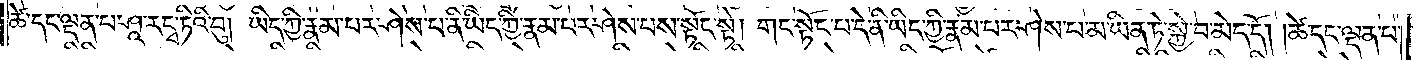ཚེ་དང་ལྡན་པ་ཤཱ་ར་དྭ་ཏིའི་བུ། ཡིད་ཀྱི་རྣམ་པར་ཤེས་པ་ནི་ཡིད་ཀྱི་རྣམ་པར་ཤེས་པས་སྟོང་སྟེ། གང་སྟོང་པ་དེ་ནི་ཡིད་ཀྱི་རྣམ་པར་ཤེས་པ་མ་ཡིན་ཏེ་སྐྱེ་བ་མེད་དོ། །ཚེ་དང་ལྡན་པ་
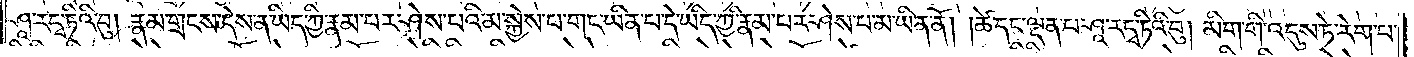ཤཱ་ར་དྭ་ཏིའི་བུ། རྣམ་གྲངས་དེས་ན་ཡིད་ཀྱི་རྣམ་པར་ཤེས་པའི་མ་སྐྱེས་པ་གང་ཡིན་པ་དེ་ཡིད་ཀྱི་རྣམ་པར་ཤེས་པ་མ་ཡིན་ནོ། །ཚེ་དང་ལྡན་པ་ཤཱ་ར་དྭ་ཏིའི་བུ། མིག་གི་འདུས་ཏེ་རེག་པ་
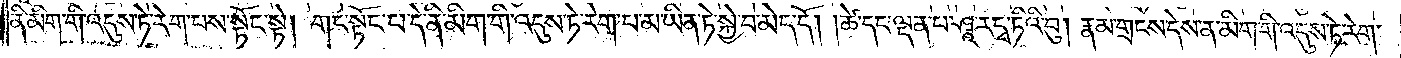ནི་མིག་གི་འདུས་ཏེ་རེག་པས་སྟོང་སྟེ། གང་སྟོང་པ་དེ་ནི་མིག་གི་འདུས་ཏེ་རེག་པ་མ་ཡིན་ཏེ་སྐྱེ་བ་མེད་དོ། །ཚེ་དང་ལྡན་པ་ཤཱ་ར་དྭ་ཏིའི་བུ། རྣམ་གྲངས་དེས་ན་མིག་གི་འདུས་ཏེ་རེག་
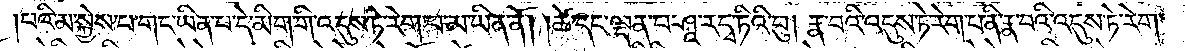པའི་མ་སྐྱེས་པ་གང་ཡིན་པ་དེ་མིག་གི་འདུས་ཏེ་རེག་པ་མ་ཡིན་ནོ། །ཚེ་དང་ལྡན་པ་ཤཱ་ར་དྭ་ཏིའི་བུ། རྣ་བའི་འདུས་ཏེ་རེག་པ་ནི་རྣ་བའི་འདུས་ཏེ་རེག་
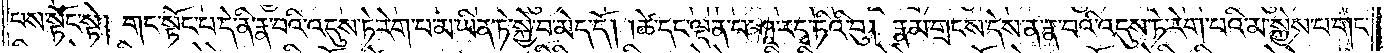པས་སྟོང་སྟེ། གང་སྟོང་པ་དེ་ནི་རྣ་བའི་འདུས་ཏེ་རེག་པ་མ་ཡིན་ཏེ་སྐྱེ་བ་མེད་དོ། །ཚེ་དང་ལྡན་པ་ཤཱ་ར་དྭ་ཏིའི་བུ། རྣམ་གྲངས་དེས་ན་རྣ་བའི་འདུས་ཏེ་རེག་པའི་མ་སྐྱེས་པ་གང་
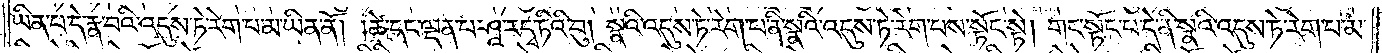ཡིན་པ་དེ་རྣ་བའི་འདུས་ཏེ་རེག་པ་མ་ཡིན་ནོ། །ཚེ་དང་ལྡན་པ་ཤཱ་ར་དྭ་ཏིའི་བུ། སྣའི་འདུས་ཏེ་རེག་པ་ནི་སྣའི་འདུས་ཏེ་རེག་པས་སྟོང་སྟེ། གང་སྟོང་པ་དེ་ནི་སྣའི་འདུས་ཏེ་རེག་པ་མ་
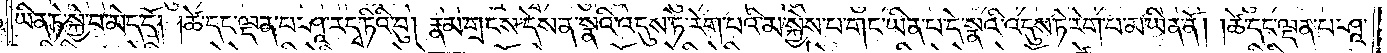ཡིན་ཏེ་སྐྱེ་བ་མེད་དོ། །ཚེ་དང་ལྡན་པ་ཤཱ་ར་དྭ་ཏིའི་བུ། རྣམ་གྲངས་དེས་ན་སྣའི་འདུས་ཏེ་རེག་པའི་མ་སྐྱེས་པ་གང་ཡིན་པ་དེ་སྣའི་འདུས་ཏེ་རེག་པ་མ་ཡིན་ནོ། །ཚེ་དང་ལྡན་པ་ཤཱ་
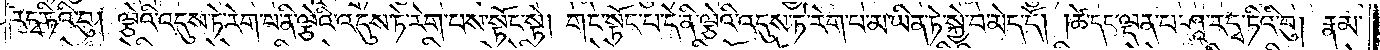ར་དྭ་ཏིའི་བུ། ལྕེའི་འདུས་ཏེ་རེག་པ་ནི་ལྕེའི་འདུས་ཏེ་རེག་པས་སྟོང་སྟེ། གང་སྟོང་པ་དེ་ནི་ལྕེའི་འདུས་ཏེ་རེག་པ་མ་ཡིན་ཏེ་སྐྱེ་བ་མེད་དོ། །ཚེ་དང་ལྡན་པ་ཤཱ་ར་དྭ་ཏིའི་བུ། རྣམ་
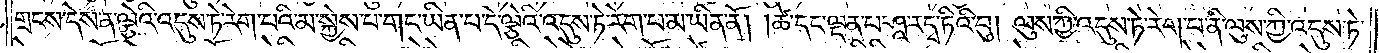གྲངས་དེས་ན་ལྕེའི་འདུས་ཏེ་རེག་པའི་མ་སྐྱེས་པ་གང་ཡིན་པ་དེ་ལྕེའི་འདུས་ཏེ་རེག་པ་མ་ཡིན་ནོ། །ཚེ་དང་ལྡན་པ་ཤཱ་ར་དྭ་ཏིའི་བུ། ལུས་ཀྱི་འདུས་ཏེ་རེག་པ་ནི་ལུས་ཀྱི་འདུས་ཏེ་
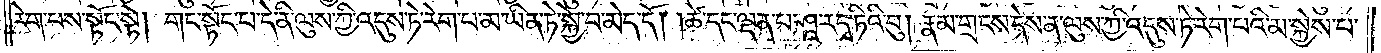རེག་པས་སྟོང་སྟེ། གང་སྟོང་པ་དེ་ནི་ལུས་ཀྱི་འདུས་ཏེ་རེག་པ་མ་ཡིན་ཏེ་སྐྱེ་བ་མེད་དོ། །ཚེ་དང་ལྡན་པ་ཤཱ་ར་དྭ་ཏིའི་བུ། རྣམ་གྲངས་དེས་ན་ལུས་ཀྱི་འདུས་ཏེ་རེག་པའི་མི་སྐྱེས་པ་
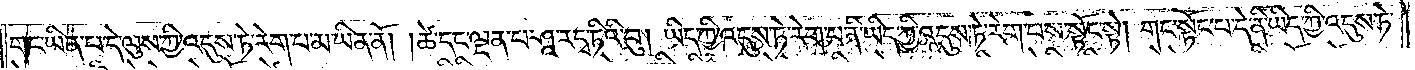གང་ཡིན་པ་དེ་ལུས་ཀྱི་འདུས་ཏེ་རེག་པ་མ་ཡིན་ནོ། །ཚེ་དང་ལྡན་པ་ཤཱ་ར་དྭ་ཏིའི་བུ། ཡིད་ཀྱི་འདུས་ཏེ་རེག་པ་ནི་ཡིད་ཀྱི་འདུས་ཏེ་རེག་པས་སྟོང་སྟེ། གང་སྟོང་པ་དེ་ནི་ཡིད་ཀྱི་འདུས་ཏེ་
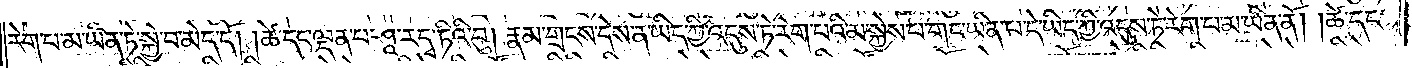རེག་པ་མ་ཡིན་ཏེ་སྐྱེ་བ་མེད་དོ། །ཚེ་དང་ལྡན་པ་ཤཱ་ར་དྭ་ཏིའི་བུ། རྣམ་གྲངས་དེས་ན་ཡིད་ཀྱི་འདུས་ཏེ་རེག་པའི་མ་སྐྱེས་པ་གང་ཡིན་པ་དེ་ཡིད་ཀྱི་འདུས་ཏེ་རེག་པ་མ་ཡིན་ནོ། །ཚེ་དང་
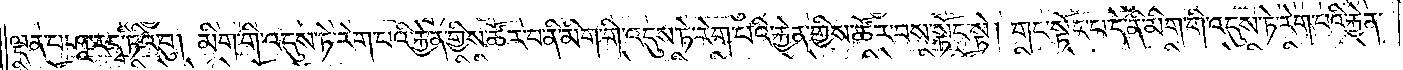ལྡན་པ་ཤཱ་ར་དྭ་ཏིའི་བུ། མིག་གི་འདུས་ཏེ་རེག་པའི་རྐྱེན་གྱིས་ཚོར་བ་ནི་མིག་གི་འདུས་ཏེ་རེག་པའི་རྐྱེན་གྱིས་ཚོར་བས་སྟོང་སྟེ། གང་སྟོང་པ་དེ་ནི་མིག་གི་འདུས་ཏེ་རེག་པའི་རྐྱེན་
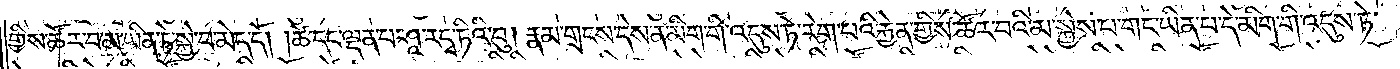གྱིས་ཚོར་བ་མ་ཡིན་ཏེ་སྐྱེ་བ་མེད་དོ། །ཚེ་དང་ལྡན་པ་ཤཱ་ར་དྭ་ཏིའི་བུ། རྣམ་གྲངས་དེས་ན་མིག་གི་འདུས་ཏེ་རེག་པའི་རྐྱེན་གྱིས་ཚོར་བའི་མ་སྐྱེས་པ་གང་ཡིན་པ་དེ་མིག་གི་འདུས་ཏེ་
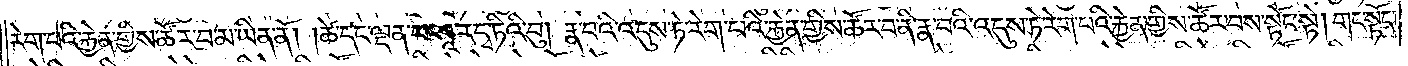རེག་པའི་རྐྱེན་གྱིས་ཚོར་བ་མ་ཡིན་ནོ། །ཚེ་དང་ལྡན་པ་ཤཱ་ར་དྭ་ཏིའི་བུ། རྣ་བའི་འདུས་ཏེ་རེག་པའི་རྐྱེན་གྱིས་ཚོར་བ་ནི་རྣ་བའི་འདུས་ཏེ་རེག་པའི་རྐྱེན་གྱིས་ཚོར་བས་སྟོང་སྟེ། གང་སྟོང་
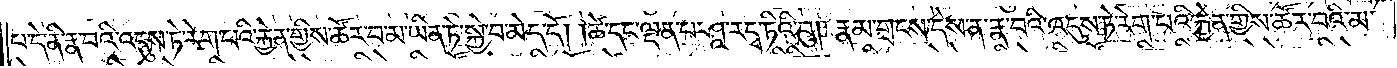པ་དེ་ནི་རྣ་བའི་འདུས་ཏེ་རེག་པའི་རྐྱེན་གྱིས་ཚོར་བ་མ་ཡིན་ཏེ་སྐྱེ་བ་མེད་དོ། །ཚེ་དང་ལྡན་པ་ཤཱ་ར་དྭ་ཏིའི་བུ། རྣམ་གྲངས་དེས་ན་རྣ་བའི་འདུས་ཏེ་རེག་པའི་རྐྱེན་གྱིས་ཚོར་བའི་མ་
